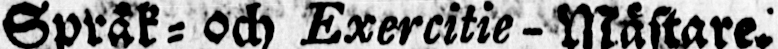Språk- och Exercitie-Mästare.
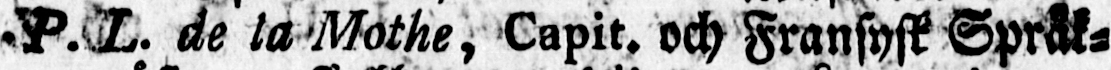P.L. de la Mothe, Capit. och Fransysk Språk-
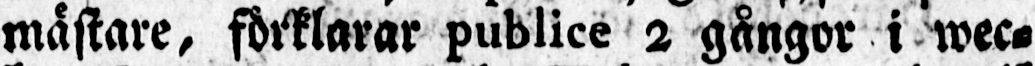mästare, förklarar publice 2 gångor i wec-
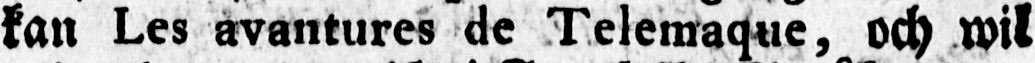kan Les avantures de Telemaque, och wil
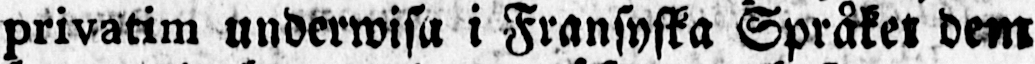privatim underwisa i Fransyska Språket dem
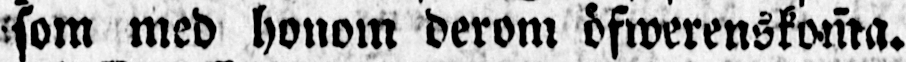som med honom derom öfwerenskoma.
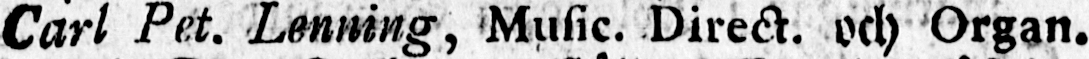Carl Pet. Lenning, Music. Direct. och Organ.
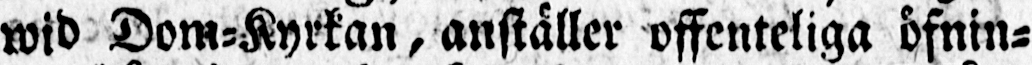wid Dom-Kyrkan, anställer offenteliga öfnin-
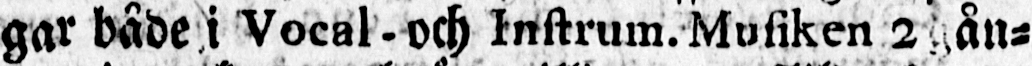gar både i Vocal- och Instrum.Musiken 2 gån-
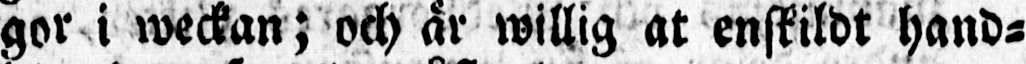gor i weckan; och är willig at enskildt hand-
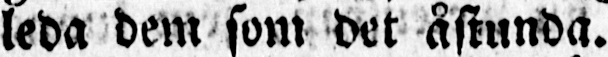leda dem som det åstunda.
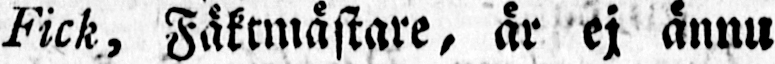Eric Gustaf Fick, Fäktmästare, är ej ännu
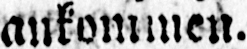ankommen.
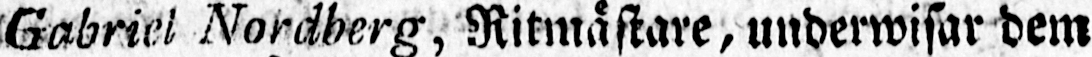Gabriel Nordberg, Ritmästare, underwisar dem
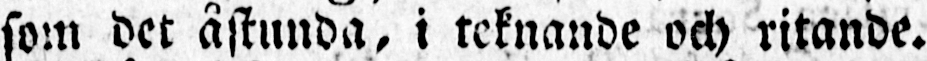som det åstunda, i teknande och ritande.
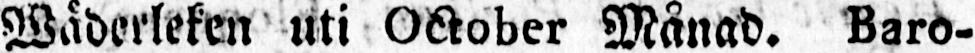Wäderleken uti October Månad. Baro-
